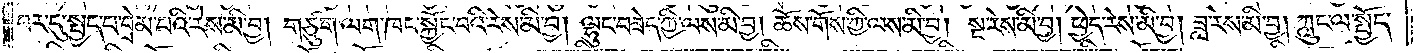བར་དུ་སྤྱད་པ་བྲེམ་པའི་རེས་མི་བྱ། གཙུག་ལག་ཁང་སྐྱོང་བའི་རེས་མི་བྱ། ལྷུང་བཟེད་ཀྱི་ལས་མི་བྱ། ཆོས་གོས་ཀྱི་ལས་མི་བྱ། སྔ་རེས་མི་བྱ། ཕྱེད་རེས་མི་བྱ། ཟླ་རེས་མི་བྱ། ཀླུང་ལ་སྤྱོད་
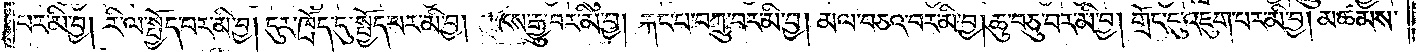པར་མི་བྱ། རི་ལ་སྤྱོད་པར་མི་བྱ། དུར་ཁྲོད་དུ་སྤྱོད་པར་མི་བྱ། ལྗོངས་རྒྱུ་བར་མི་བྱ། རྐང་པ་བཀྲུ་བར་མི་བྱ། མལ་བཅའ་བར་མི་བྱ། ཆུ་བཅུ་པར་མི་བྱ། གྲོང་དུ་འཇུག་པར་མི་བྱ། མཚམས་
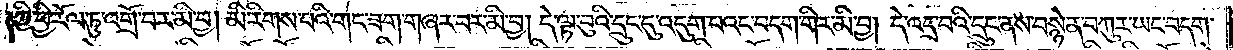ཀྱི་ཕྱི་རོལ་ཏུ་འགྲོ་བར་མི་བྱ། མི་རིགས་པའི་གང་ཟག་གཞར་བར་མི་བྱ། དེ་ལྟ་བུའི་དྲུང་དུ་འདུག་པའང་བདག་གིར་མི་བྱ། དེ་འདྲ་བའི་དྲུང་ནས་བསྙེན་བཀུར་ཡང་བདག་
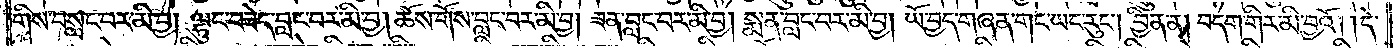གིས་བསླང་བར་མི་བྱ། ལྷུང་བཟེད་བླང་བར་མི་བྱ། ཆོས་གོས་བླང་བར་མི་བྱ། ཟན་བླང་བར་མི་བྱ། སྨན་བླང་བར་མི་བྱ། ཡོ་བྱད་གཞན་གང་ཡང་རུང༌། བྱིན་ན། བདག་གིར་མི་བྱའོ། །དེ་
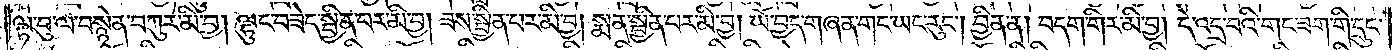ལྟ་བུ་ལ་བསྙེན་བཀུར་མི་བྱ། ལྷུང་བཟེད་སྦྱིན་བར་མི་བྱ། ཟས་སྦྱིན་པར་མི་བྱ། སྨན་སྦྱིན་པར་མི་བྱ། ཡོ་བྱད་གཞན་གང་ཡང་རུང༌། བྱིན་ན། བདག་གིར་མི་བྱ། དེ་འདྲ་བའི་གང་ཟག་གི་དྲུང་
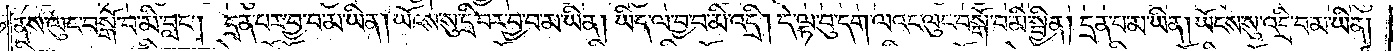ནས་ལུང་བསྒོ་བ་མི་བླང༌། དྲན་པར་བྱ་བ་མ་ཡིན། ཡོངས་སུ་དྲི་བར་བྱ་བ་མ་ཡིན། ཡིད་ལ་བྱ་བ་མི་འདྲི། དེ་ལྟ་བུ་དག་ལའང་ལུང་བསྒོ་བ་མི་སྦྱིན། དྲན་པ་མ་ཡིན། ཡོངས་སུ་འདྲི་བ་མ་ཡིན།
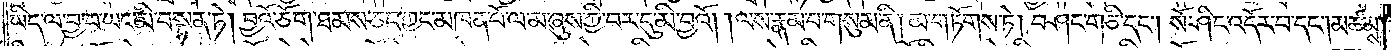ཡིད་ལ་བྱ་བ་ཡང་མི་བསྟན་ཏེ། བྱའོ་ཅོག་ཐམས་ཅད་ཀྱང་མཁན་པོ་ལ་མ་ཞུས་ཀྱི་བར་དུ་མི་བྱའོ། །ལས་རྣམ་པ་གསུམ་ནི། མ་གཏོགས་ཏེ། བཤང་གཅི་དང༌། སོ་ཤིང་འདོར་བ་དང༌། མཚམས་
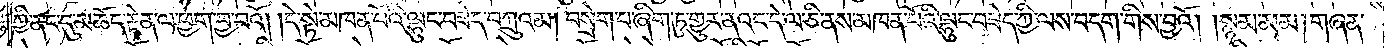ཀྱི་ནང་དུ་མཆོད་རྟེན་ལ་ཕྱག་བྱ་བའོ། །དེ་སྟེ་མཁན་པོའི་ལྷུང་བཟེད་བཀྲུའམ། བསྲེག་པ་ཞིག་ཏུ་གྱུར་ནའང་དེ་ལ་ཅི་ནས་མཁན་པོའི་ལྷུང་བཟེད་ཀྱི་ལས་བདག་གིས་བྱའོ། །སྙམ་མམ། གཞན་
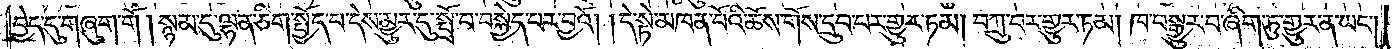བྱེད་དུ་གཞུག་གོ །སྙམ་དུ་ལྷན་ཅིག་སྤྱོད་པ་དེས་མྱུར་དུ་སྤྲོ་བ་བསྐྱེད་པར་བྱའོ། །དེ་སྟེ་མཁན་པོའི་ཆོས་གོས་དྲུབ་པར་གྱུར་ཏམ། བཀྲུ་བར་གྱུར་ཏམ། ཁ་བསྒྱུར་བ་ཞིག་ཏུ་གྱུར་ན་ཡང༌།
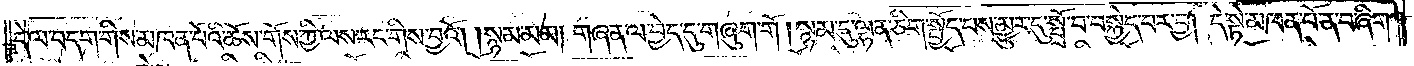དེ་ལ་བདག་གིས་མཁན་པོའི་ཆོས་གོས་ཀྱི་ལས་རང་གིས་བྱའོ། །སྙམ་མམ། གཞན་ལ་བྱེད་དུ་གཞུག་གོ །སྙམ་དུ་ལྷན་ཅིག་སྤྱོད་པས་མྱུར་དུ་སྤྲོ་བ་བསྐྱེད་པར་བྱ། དེ་སྟེ་མཁན་པོ་ན་བ་ཞིག་
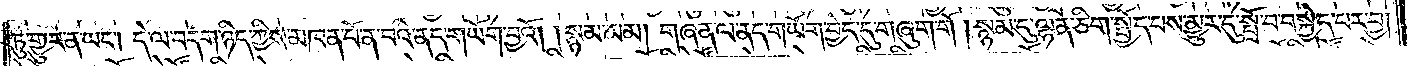ཏུ་གྱུར་ན་ཡང༌། དེ་ལ་བདག་ཉིད་ཀྱིས་མཁན་པོ་ན་བའི་ནད་གཡོག་བྱའོ། །སྙམ་མམ། གཞན་ལ་ནད་གཡོག་བྱེད་དུ་གཞུག་གོ །སྙམ་དུ་ལྷན་ཅིག་སྤྱོད་པས་མྱུར་དུ་སྤྲོ་བ་བསྐྱེད་པར་བྱ།
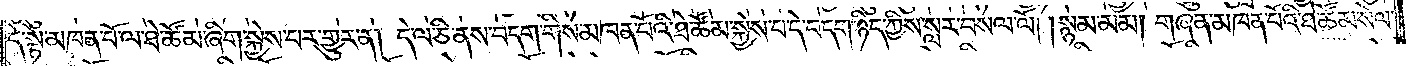དེ་སྟེ་མཁན་པོ་ལ་ཐེ་ཚོམ་ཞིག་སྐྱེས་པར་གྱུར་ན། དེ་ལ་ཅི་ནས་བདག་གིས་མཁན་པོའི་ཐེ་ཚོམ་སྐྱེས་པ་དེ་བདག་ཉིད་ཀྱིས་སླར་བསལ་ལོ། །སྙམ་མམ། གཞན་མཁན་པོའི་ཐེ་ཚོམ་སེལ་
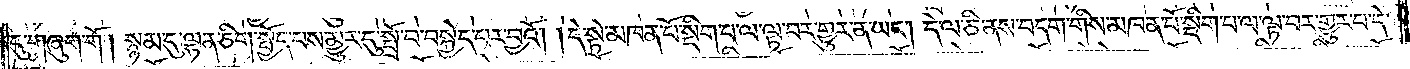དུ་གཞུག་གོ། སྙམ་དུ་ལྷན་ཅིག་སྤྱོད་པས་མྱུར་དུ་སྤྲོ་བ་བསྐྱེད་པར་བྱའོ། །དེ་སྟེ་མཁན་པོ་སྡིག་པ་ལ་ལྟ་བར་གྱུར་ན་ཡང༌། དེ་ལ་ཅི་ནས་བདག་གིས་མཁན་པོ་སྡིག་པ་ལ་ལྟ་བར་གྱུར་པ་དེ་
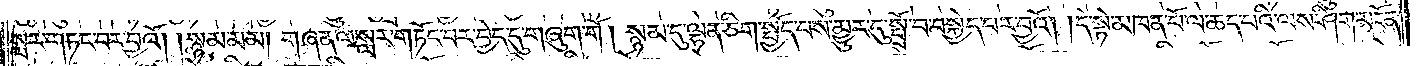སླར་གཏང་བར་བྱའོ། །སྙམ་མམ། གཞན་ལ་སླར་གཏོང་བར་བྱེད་དུ་གཞུག་གོ། སྙམ་དུ་ལྷན་ཅིག་སྤྱོད་པས་མྱུར་དུ་སྤྲོ་བ་བསྐྱེད་པར་བྱའོ། །དེ་སྟེ་མཁན་པོ་ལ་ཆད་པའི་ལས་ཤིག་མངོན་
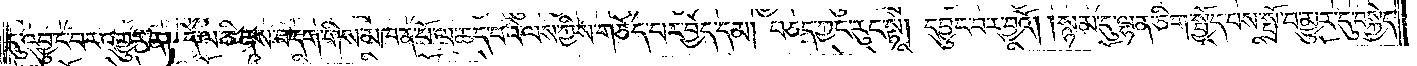དུ་འབྱུང་བར་འགྱུར་ན། དེ་ལ་ཅི་ནས་བདག་གིས་མཁན་པོ་ལ་ཆད་པའི་ལས་ཀྱིས་གཅོད་པར་བྱེད་དམ། བཅད་ཀྱང་རུང་སྟེ། དབྱུང་བར་བྱའོ། །སྙམ་དུ་ལྷན་ཅིག་སྤྱོད་པས་སྤྲོ་བ་མྱུར་དུ་བསྐྱེད་
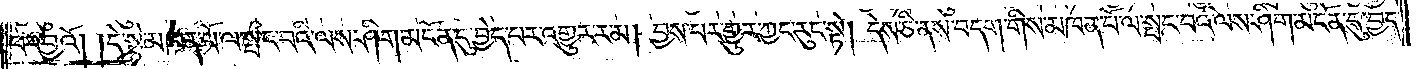པར་བྱའོ། །དེ་སྟེ་མཁན་པོ་ལ་སྤང་བའི་ལས་ཤིག་མངོན་དུ་བྱེད་པར་འགྱུར་ར་མ། བྱས་པར་གྱུར་ཀྱང་རུང་སྟེ། དེས་ཅི་ནས་བདག་གིས་མཁན་པོ་ལ་སྤང་བའི་ལས་ཤིག་མངོན་དུ་བྱེད་
